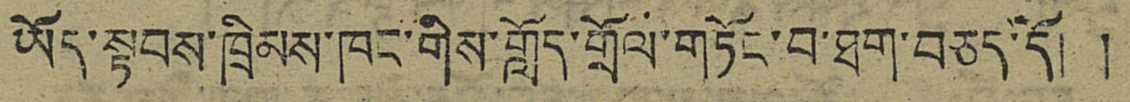ཡོད་སྟབས་ཁྲིམས་ཁང་གིས་གློད་གྲོལ་གཏོང་བ་ཐག་བཅད་དོ། །
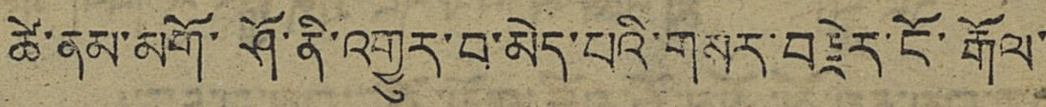ཚེ་ནམ་མགོ་ཤོ་ནི་འགྱུར་བ་མེད་པའི་གསར་བརྗེར་ངོ་རྒོལ་
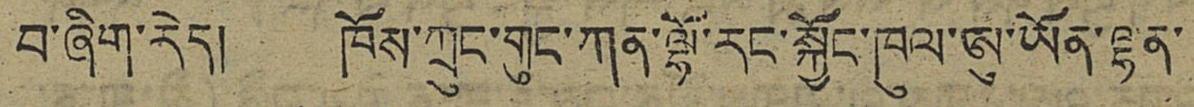བ་ཞིག་རེད། ཁོས་ཀྲུང་གུང་ཀན་ལྷོ་རང་སྐྱོང་ཀུལ་ཨུ་ཡོན་ལྷན་
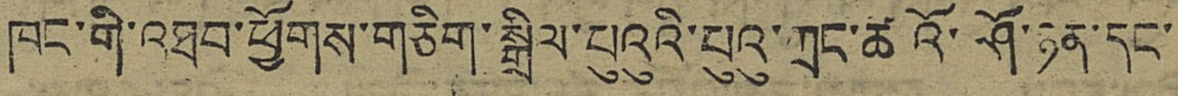ཁང་གི་འཐབ་ཕྱོགས་གཅིག་སྒྲིལ་པུའུའི་པུའུ་ཀྲང་ཚའོ་ཤོ་ཉན་དང་
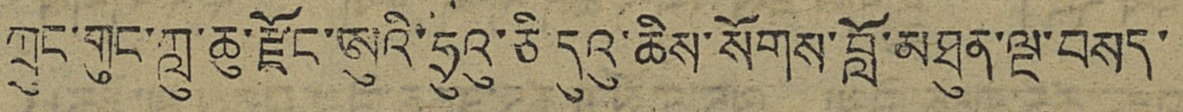ཀྲུང་གུང་ཀླུ་ཆུ་རྫོང་ཨུའི་ཧྲུའུ་ཅི དུའུ་ཆིས་སོགས་བློ་མཐུན་ལྔ་བསད་
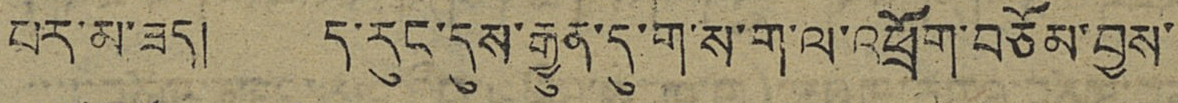པར་མ་ཟད། ད་རུང་དུས་རྒྱུན་དུ་ག་ས་ག་ལ་འཕྲོག་བཅོམ་བྱས་
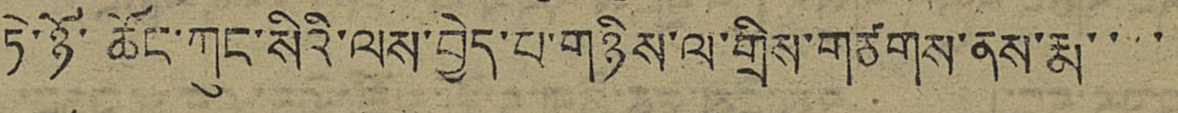ཏེ་ཉོ་ཆོང་ཀུང་སིའི་ལས་བྱེད་པ་གཉིས་ལ་གྲིས་གཙགས་ནས་རྨ་་་་
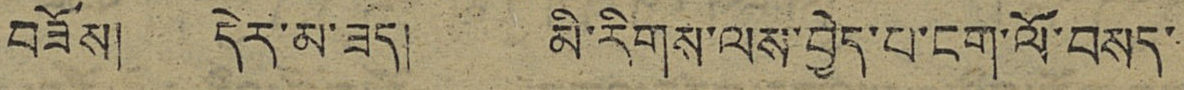བཟོས། དེར་མ་ཟད། མི་རིགས་ལས་བྱེད་པ་ངག་ལོ་བསད་
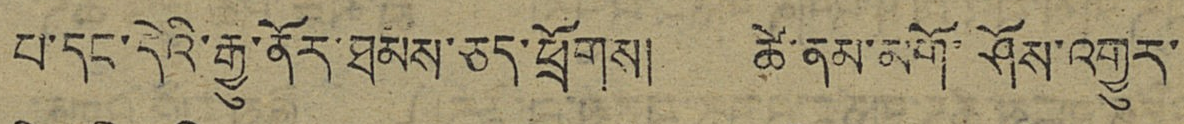པ་དང་དེའི་རྒྱུ་ནོར་ཐམས་ཅད་ཕྲོགས། ཚེ་ནམ་མགོ་ཤོས་འགྱུར་
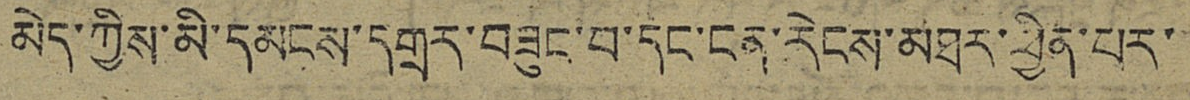མེད་ཀྱིས་མི་དམངས་དགྲར་བཟུང་བ་དང་ངན་རེངས་མཐར་ཕྱིན་པར་
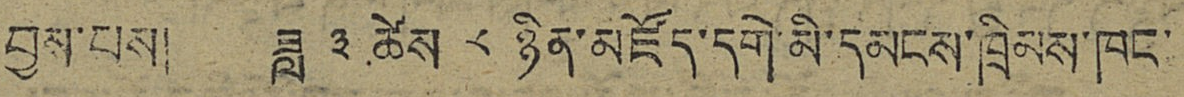བྱས་པས། ཟླ ༣ ཚེས ༨ ཉིན་མཛོད་དགེ་མི་དམངས་ཁྲིམས་ཁང་
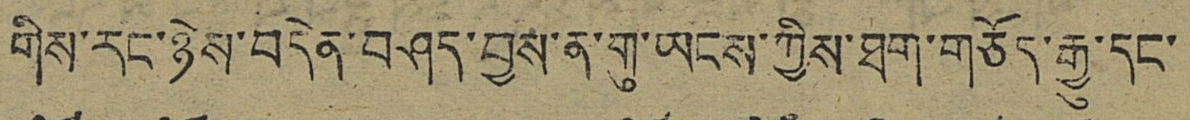གིས་རང་ཉེས་བདེན་བཤད་བྱས་ན་གུ་ཡངས་ཀྱིས་ཐག་གཅོད་རྒྱུ་དང་
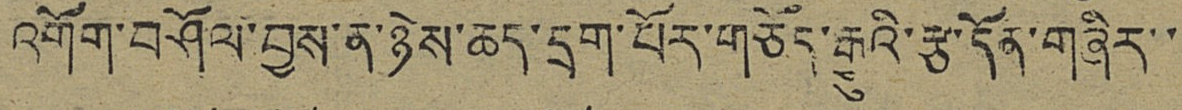འགོག་བཤོལ་བྱས་ན་ཉེས་ཆད་དྲག་པོར་གཅོད་རྒྱུའི་རྩ་དོན་གཞིར་་
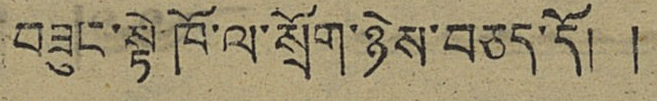བཟུང་སྟེ་ཁོ་ལ་སྲོག་ཉེས་བཅད་དོ། །
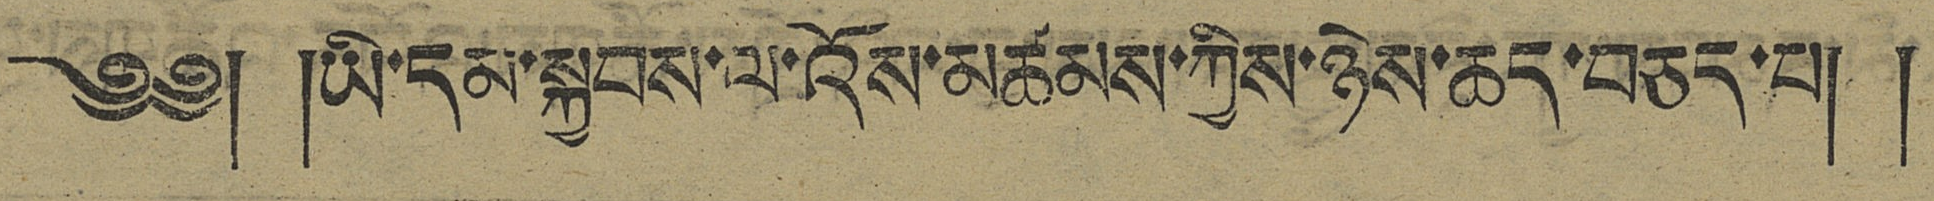༄༅། །ཡི་དམ་སྐྱབས་ལ་འོས་མཚམས་ཀྱིས་ཉེས་ཆད་བཅད་པ། །
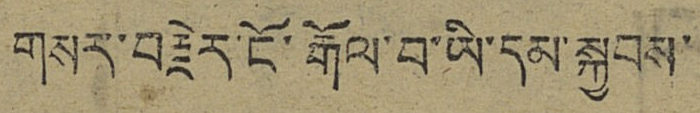གསར་བརྗེར་ངོ་རྒོལ་བ་ཡི་དམ་སྐྱབས་
